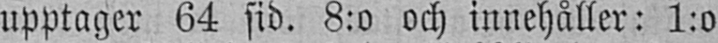upptager 64 sid. 8:o och innehåller: 1:o
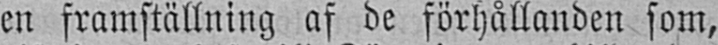en framställning af de förhållanden som,
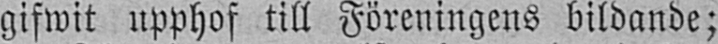gifwit upphof till Föreningens bildande;
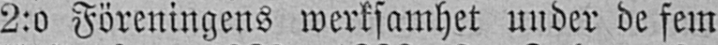2:o Föreningens werksamhet under de fem
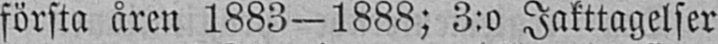första åren 1883-1888; 3:o Iakttagelser
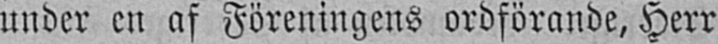under en af Föreningens ordförande, Herr
